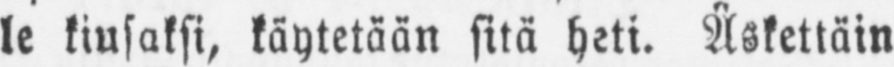le kiusaksi, käytetään sitä heti. Äskettäin
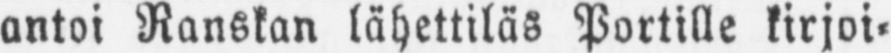antoi Ranskan lähettiläs Portille kirjoi-
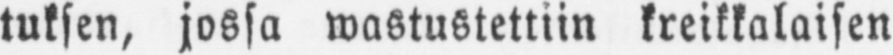tuksen, jossa wastustettiin kreikkalaisen
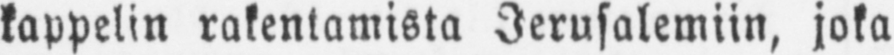kappelin rakentamista Jerusalemiin, joka
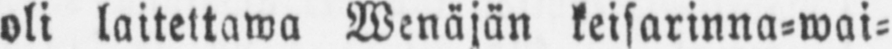oli laitettawa Wenäjän keisarinna-wai-
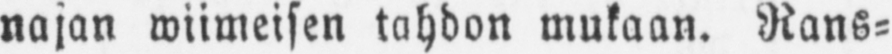najan wiimeisen tahdon mukaan. Rans-
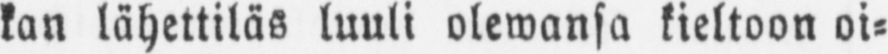kan lähettiläs luuli olewansa kieltoon oi-
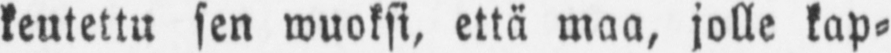keutettu sen wuoksi, että maa, jolle kap-
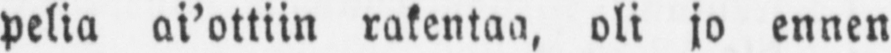pelia ai'ottiin rakentaa, oli jo ennen
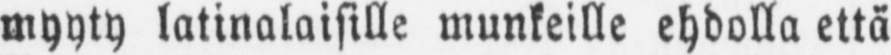myyty latinalaisille munkeille ehdolla että
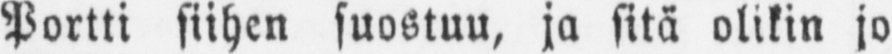Portti siihen suostuu, ja sitä olikin jo
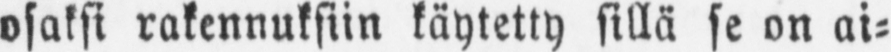osaksi rakennuksiin käytetty sillä se on ai-
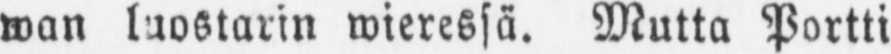wan luostarin wieressä. Mutta Portti
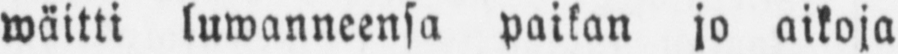wäitti luwanneensa paikan jo aikoja
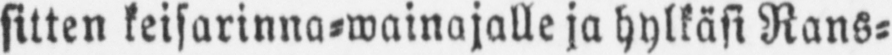sitten keisarinna-wainajalle ja hylkäsi Rans-
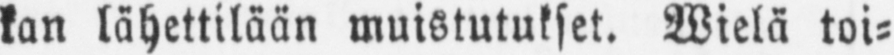kan lähettilään muistutukset. Wielä toi-
